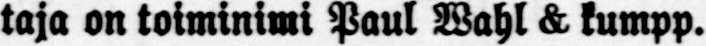taja on toiminimi Paul Wahl & kumpp.
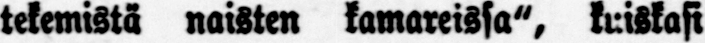tekemistä naisten kamareissa", kuiskasi
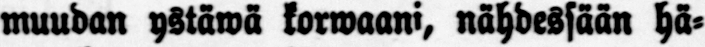muudan ystäwä korwaani, nähdessään hä-
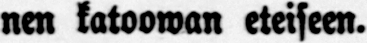nen katoowan eteiseen.
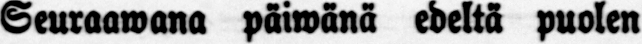Seuraawana päiwänä edeltä puolen
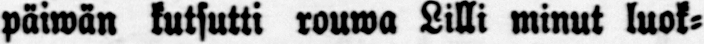päiwän kutsutti rouwa Lilli minut luok-
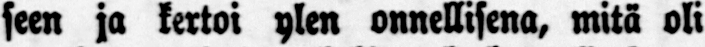seen ja kertoi ylen onnellisena, mitä oli
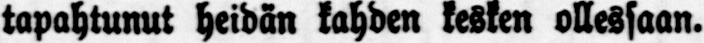tapahtunut heidän kahden kesken ollessaan.
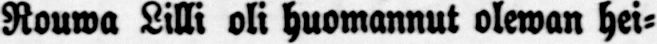Rouwa Lilli oli huomannut olewan hei-
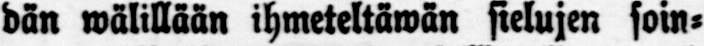dän wälillään ihmeteltäwän sielujen soin-
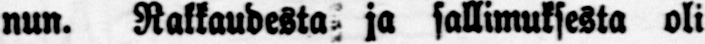nun. Rakkaudesta ja sallimuksesta oli
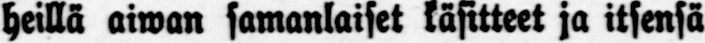heillä aiwan samanlaiset käsitteet ja itsensä
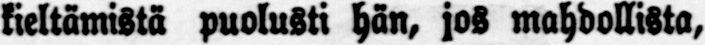kieltämistä puolusti hän, jos mahdollista,
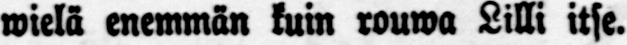wielä enemmän kuin rouwa Lilli itse.
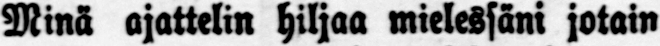Minä ajattelin hiljaa mielessäni jotain
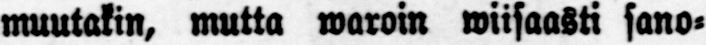muutakin, mutta waroin wiisaasti sano-
